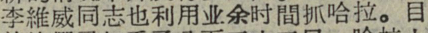李維威同志也利用业余时間抓哈拉。目
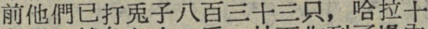前他們已打兎子八百三十三只，哈拉十
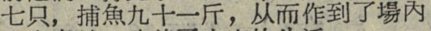七只，捕魚九十一斤，从而作到了場內
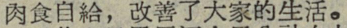肉食自給，改善了大家的生活。
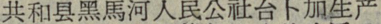共和县黑馬河人民公社台卜加生产
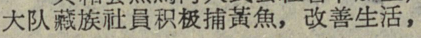大队藏族社員积极捕黃魚，改善生活，
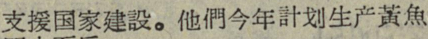支援国家建設。他間今年計划生产黃魚
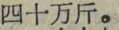四十万斤。
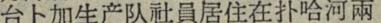台卜加生产队社員居住在扑哈河兩
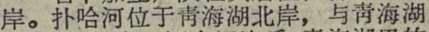岸。扑哈河位于靑海湖北岸，与靑海湖
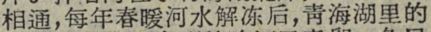相通，每年春暖河水解冻后，靑海湖里的
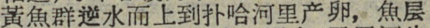黃魚群逆水而上到扑哈河里产卵，魚层
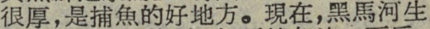很厚，是捕魚的好地方。現在，黑馬河生
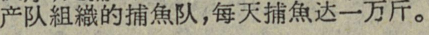产队組織的捕魚队，每天捕魚一万斤。
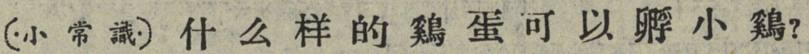（小 常 識）什 么 样 的 鷄 蛋 可 以 孵 小 鷄？
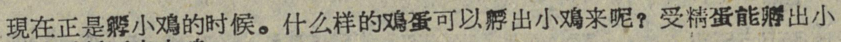現在正是孵小鳮的时候。什么样的鳮蛋可以孵出小鳮来呢？受精蛋能孵出小
